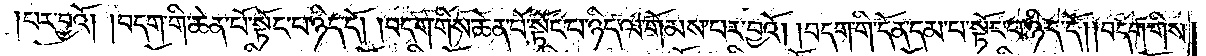པར་བྱའོ། །བདག་གི་ཆེན་པོ་སྟོང་པ་ཉིད་དོ། །བདག་གིས་ཆེན་པོ་སྟོང་པ་ཉིད་ལ་གོམས་པར་བྱའོ། །བདག་གི་དོན་དམ་པ་སྟོང་པ་ཉིད་དོ། །བདག་གིས་
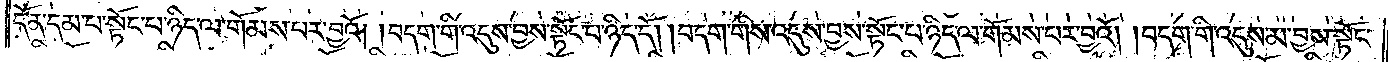དོན་དམ་པ་སྟོང་པ་ཉིད་ལ་གོམས་པར་བྱའོ། །བདག་གི་འདུས་བྱས་སྟོང་པ་ཉིད་དོ། །བདག་གིས་འདུས་བྱས་སྟོང་པ་ཉིད་ལ་གོམས་པར་བྱའོ། །བདག་གི་འདུས་མ་བྱས་སྟོང་
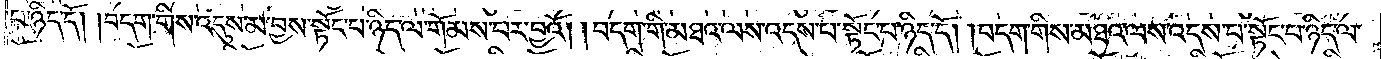པ་ཉིད་དོ། །བདག་གིས་འདུས་མ་བྱས་སྟོང་པ་ཉིད་ལ་གོམས་པར་བྱའོ། །བདག་གི་མཐའ་ལས་འདས་པ་སྟོང་པ་ཉིད་དོ། །བདག་གིས་མཐའ་ལས་འདས་པ་སྟོང་པ་ཉིད་ལ་
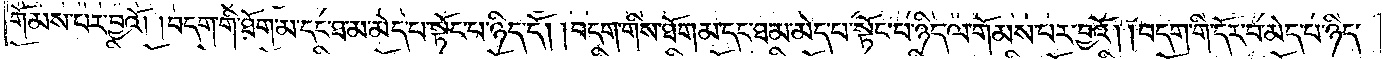གོམས་པར་བྱའོ། །བདག་གི་ཐོག་མ་དང་ཐ་མ་མེད་པ་སྟོང་པ་ཉིད་དོ། །བདག་གིས་ཐོག་མ་དང་ཐ་མ་མེད་པ་སྟོང་པ་ཉིད་ལ་གོམས་པར་བྱའོ། །བདག་གི་དོར་བ་མེད་པ་སྟོང་པ་ཉིད་
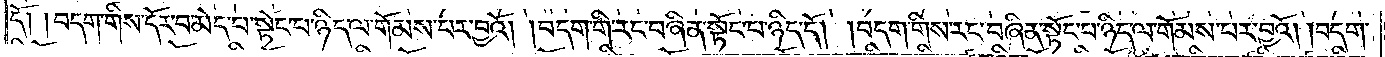དོ། །བདག་གིས་དོར་བ་མེད་པ་སྟོང་པ་ཉིད་ལ་གོམས་པར་བྱའོ། །བདག་གི་རང་བཞིན་སྟོང་པ་ཉིད་དོ། །བདག་གིས་རང་བཞིན་སྟོང་པ་ཉིད་ལ་གོམས་པར་བྱའོ། །བདག་
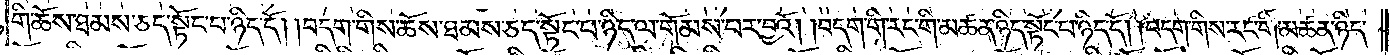གི་ཆོས་ཐམས་ཅད་སྟོང་པ་ཉིད་དོ། །བདག་གིས་ཆོས་ཐམས་ཅད་སྟོང་པ་ཉིད་ལ་གོམས་པར་བྱའོ། །བདག་གི་རང་གི་མཚན་ཉིད་སྟོང་པ་ཉིད་དོ། །བདག་གིས་རང་གི་མཚན་ཉིད་
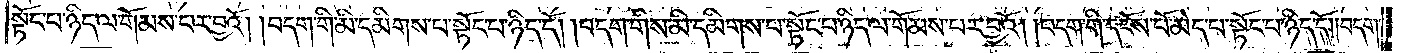སྟོང་པ་ཉིད་ལ་གོམས་པར་བྱའོ། །བདག་གི་མི་དམིགས་པ་སྟོང་པ་ཉིད་དོ། །བདག་གིས་མི་དམིགས་པ་སྟོང་པ་ཉིད་ལ་གོམས་པར་བྱའོ། །བདག་གི་དངོས་པོ་མེད་པ་སྟོང་པ་ཉིད་དོ། །བདག་
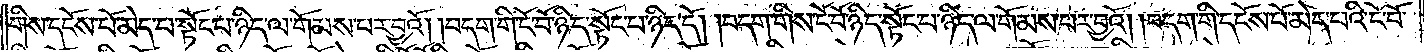གིས་དངོས་པོ་མེད་པ་སྟོང་པ་ཉིད་ལ་གོམས་པར་བྱའོ། །བདག་གི་ངོ་བོ་ཉིད་སྟོང་པ་ཉིད་དོ། །བདག་གིས་ངོ་བོ་ཉིད་སྟོང་པ་ཉིད་ལ་གོམས་པར་བྱའོ། །བདག་གི་དངོས་པོ་མེད་པའི་ངོ་བོ་
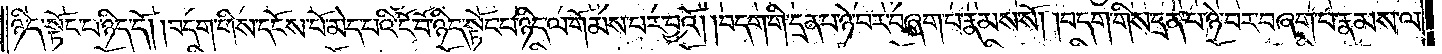ཉིད་སྟོང་པ་ཉིད་དོ། །བདག་གིས་དངོས་པོ་མེད་པའི་ངོ་བོ་ཉིད་སྟོང་པ་ཉིད་ལ་གོམས་པར་བྱའོ། །བདག་གི་དྲན་པ་ཉེ་བར་བཞག་པ་རྣམས་སོ། །བདག་གིས་དྲན་པ་ཉེ་བར་བཞག་པ་རྣམས་ལ་
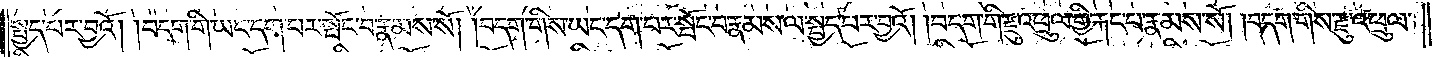སྤྱད་པར་བྱའོ། །བདག་གི་ཡང་དག་པར་སྤོང་བ་རྣམས་སོ། །བདག་གིས་ཡང་དག་པར་སྤོང་བ་རྣམས་ལ་སྤྱད་པར་བྱའོ། །བདག་གི་རྫུ་འཕྲུལ་གྱི་རྐང་པ་རྣམས་སོ། །བདག་གིས་རྫུ་འཕྲུལ་
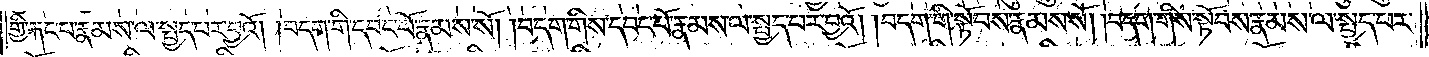གྱི་རྐང་པ་རྣམས་ལ་སྤྱད་པར་བྱའོ། །བདག་གི་དབང་པོ་རྣམས་སོ། །བདག་གིས་དབང་པོ་རྣམས་ལ་སྤྱད་པར་བྱའོ། །བདག་གི་སྟོབས་རྣམས་སོ། །བདག་གིས་སྟོབས་རྣམས་ལ་སྤྱད་པར་
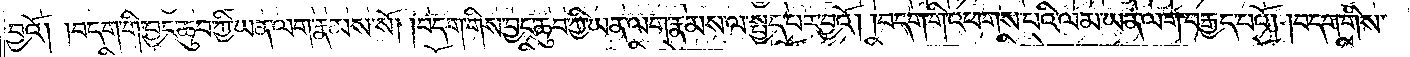བྱའོ། །བདག་གི་བྱང་ཆུབ་ཀྱི་ཡན་ལག་རྣམས་སོ། །བདག་གིས་བྱང་ཆུབ་ཀྱི་ཡན་ལག་རྣམས་ལ་སྤྱད་པར་བྱའོ། །བདག་གི་འཕགས་པའི་ལམ་ཡན་ལག་བརྒྱད་པའོ། །བདག་གིས་
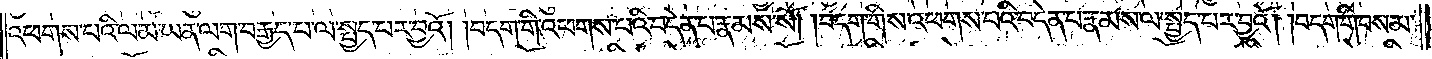འཕགས་པའི་ལམ་ཡན་ལག་བརྒྱད་པ་ལ་སྤྱད་པར་བྱའོ། །བདག་གི་འཕགས་པའི་བདེན་པ་རྣམས་སོ། །བདག་གིས་འཕགས་པའི་བདེན་པ་རྣམས་ལ་སྤྱད་པར་བྱའོ། །བདག་གི་བསམ་
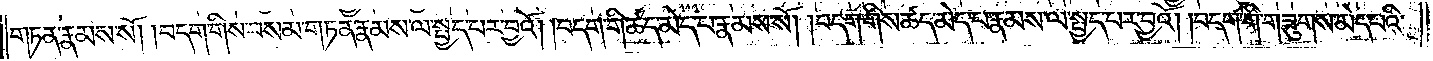གཏན་རྣམས་སོ། །བདག་གིས་བསམ་གཏན་རྣམས་ལ་སྤྱད་པར་བྱའོ། །བདག་གི་ཚད་མེད་པ་རྣམས་སོ། །བདག་གིས་ཚད་མེད་པ་རྣམས་པ་སྤྱད་པར་བྱའོ། །བདག་གི་གཟུགས་མེད་པའི་
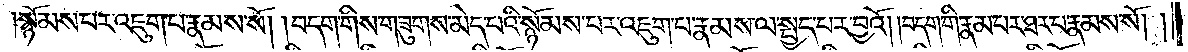སྙོམས་པར་འཇུག་པ་རྣམས་སོ། །བདག་གིས་གཟུགས་མེད་པའི་སྙོམས་པར་འཇུག་པ་རྣམས་ལ་སྤྱད་པར་བྱའོ། །བདག་གི་རྣམ་པར་ཐར་པ་རྣམས་སོ། །
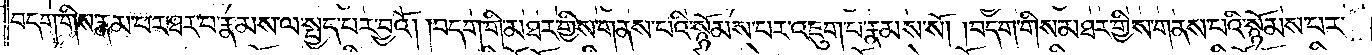བདག་གིས་རྣམ་པར་ཐར་པ་རྣམས་ལ་སྤྱད་པར་བྱའོ། །བདག་གི་མཐར་གྱིས་གནས་པའི་སྙོམས་པར་འཇུག་པ་རྣམས་སོ། །བདག་གིས་མཐར་གྱིས་གནས་པའི་སྙོམས་པར་
